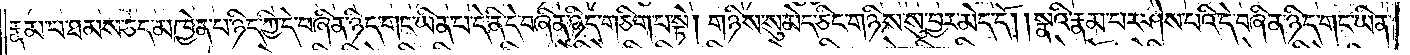རྣམ་པ་ཐམས་ཅད་མཁྱེན་པ་ཉིད་ཀྱི་དེ་བཞིན་ཉིད་གང་ཡིན་པ་དེ་ནི་དེ་བཞིན་ཉིད་གཅིག་པ་སྟེ། གཉིས་སུ་མེད་ཅིང་གཉིས་སུ་བྱར་མེད་དོ། །སྣའི་རྣམ་པར་ཤེས་པའི་དེ་བཞིན་ཉིད་གང་ཡིན་
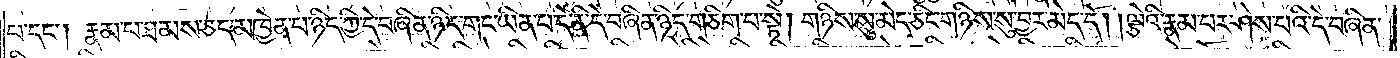པ་དང༌། རྣམ་པ་ཐམས་ཅད་མཁྱེན་པ་ཉིད་ཀྱི་དེ་བཞིན་ཉིད་གང་ཡིན་པ་དེ་ནི་དེ་བཞིན་ཉིད་གཅིག་པ་སྟེ། གཉིས་སུ་མེད་ཅིང་གཉིས་སུ་བྱར་མེད་དོ། །ལྕེའི་རྣམ་པར་ཤེས་པའི་དེ་བཞིན་
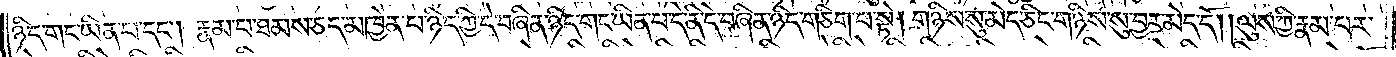ཉིད་གང་ཡིན་པ་དང༌། རྣམ་པ་ཐམས་ཅད་མཁྱེན་པ་ཉིད་ཀྱི་དེ་བཞིན་ཉིད་གང་ཡིན་པ་དེ་ནི་དེ་བཞིན་ཉིད་གཅིག་པ་སྟེ། གཉིས་སུ་མེད་ཅིང་གཉིས་སུ་བྱར་མེད་དོ། །ལུས་ཀྱི་རྣམ་པར་
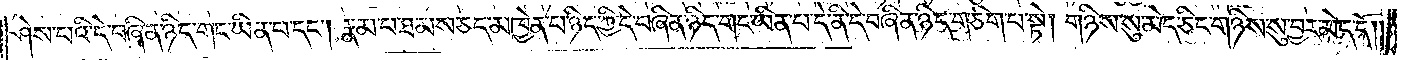ཤེས་པའི་དེ་བཞིན་ཉིད་གང་ཡིན་པ་དང༌། རྣམ་པ་ཐམས་ཅད་མཁྱེན་པ་ཉིད་ཀྱི་དེ་བཞིན་ཉིད་གང་ཡིན་པ་དེ་ནི་དེ་བཞིན་ཉིད་གཅིག་པ་སྟེ། གཉིས་སུ་མེད་ཅིང་གཉིས་སུ་བྱར་མེད་དོ། །
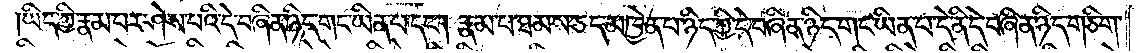ཡིད་ཀྱི་རྣམ་པར་ཤེས་པའི་དེ་བཞིན་ཉིད་གང་ཡིན་པ་དང༌། རྣམ་པ་ཐམས་ཅད་མཁྱེན་པ་ཉིད་ཀྱི་དེ་བཞིན་ཉིད་གང་ཡིན་པ་དེ་ནི་དེ་བཞིན་ཉིད་གཅིག་
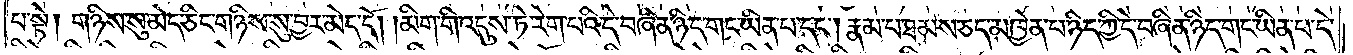པ་སྟེ། གཉིས་སུ་མེད་ཅིང་གཉིས་སུ་བྱར་མེད་དོ། །མིག་གི་འདུས་ཏེ་རེག་པའི་དེ་བཞིན་ཉིད་གང་ཡིན་པ་དང༌། རྣམ་པ་ཐམས་ཅད་མཁྱེན་པ་ཉིད་ཀྱི་དེ་བཞིན་ཉིད་གང་ཡིན་པ་དེ་
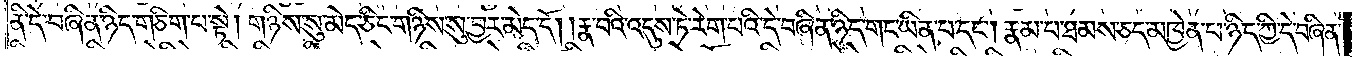ནི་དེ་བཞིན་ཉིད་གཅིག་པ་སྟེ། གཉིས་སུ་མེད་ཅིང་གཉིས་སུ་བྱར་མེད་དོ། །རྣ་བའི་འདུས་ཏེ་རེག་པའི་དེ་བཞིན་ཉིད་གང་ཡིན་པ་དང༌། རྣམ་པ་ཐམས་ཅད་མཁྱེན་པ་ཉིད་ཀྱི་དེ་བཞིན་
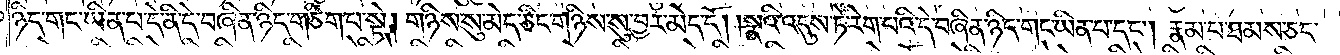ཉིད་གང་ཡིན་པ་དེ་ནི་དེ་བཞིན་ཉིད་གཅིག་པ་སྟེ། གཉིས་སུ་མེད་ཅིང་གཉིས་སུ་བྱར་མེད་དོ། །སྣའི་འདུས་ཏེ་རེག་པའི་དེ་བཞིན་ཉིད་གང་ཡིན་པ་དང༌། རྣམ་པ་ཐམས་ཅད་
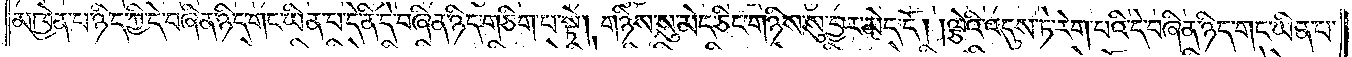མཁྱེན་པ་ཉིད་ཀྱི་དེ་བཞིན་ཉིད་གང་ཡིན་པ་དེ་ནི་དེ་བཞིན་ཉིད་གཅིག་པ་སྟེ། གཉིས་སུ་མེད་ཅིང་གཉིས་སུ་བྱར་མེད་དོ། །ལྕེའི་འདུས་ཏེ་རེག་པའི་དེ་བཞིན་ཉིད་གང་ཡིན་པ་
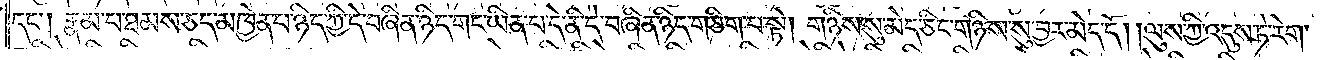དང༌། རྣམ་པ་ཐམས་ཅད་མཁྱེན་པ་ཉིད་ཀྱི་དེ་བཞིན་ཉིད་གང་ཡིན་པ་དེ་ནི་དེ་བཞིན་ཉིད་གཅིག་པ་སྟེ། གཉིས་སུ་མེད་ཅིང་གཉིས་སུ་བྱར་མེད་དོ། །ལུས་ཀྱི་འདུས་ཏེ་རེག་
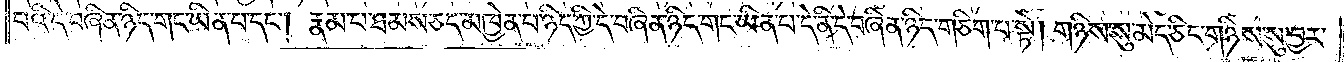པའི་དེ་བཞིན་ཉིད་གང་ཡིན་པ་དང༌། རྣམ་པ་ཐམས་ཅད་མཁྱེན་པ་ཉིད་ཀྱི་དེ་བཞིན་ཉིད་གང་ཡིན་པ་དེ་ནི་དེ་བཞིན་ཉིད་གཅིག་པ་སྟེ། གཉིས་སུ་མེད་ཅིང་གཉིས་སུ་བྱར་
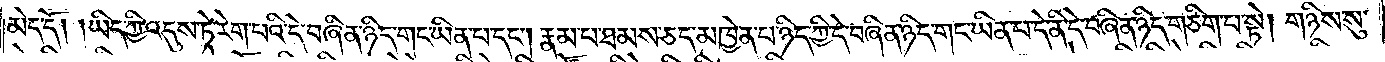མེད་དོ། །ཡིད་ཀྱི་འདུས་ཏེ་རེག་པའི་དེ་བཞིན་ཉིད་གང་ཡིན་པ་དང༌། རྣམ་པ་ཐམས་ཅད་མཁྱེན་པ་ཉིད་ཀྱི་དེ་བཞིན་ཉིད་གང་ཡིན་པ་དེ་ནི་དེ་བཞིན་ཉིད་གཅིག་པ་སྟེ། གཉིས་སུ་
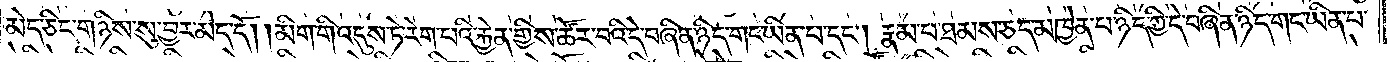མེད་ཅིང་གཉིས་སུ་བྱར་མེད་དོ། །མིག་གི་འདུས་ཏེ་རེག་པའི་རྐྱེན་གྱིས་ཚོར་བའི་དེ་བཞིན་ཉིད་གང་ཡིན་པ་དང༌། རྣམ་པ་ཐམས་ཅད་མཁྱེན་པ་ཉིད་ཀྱི་དེ་བཞིན་ཉིད་གང་ཡིན་པ་
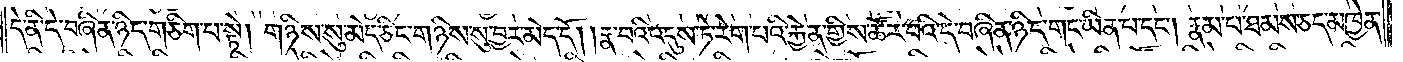དེ་ནི་དེ་བཞིན་ཉིད་གཅིག་པ་སྟེ། གཉིས་སུ་མེད་ཅིང་གཉིས་སུ་བྱར་མེད་དོ། །རྣ་བའི་འདུས་ཏེ་རེག་པའི་རྐྱེན་གྱིས་ཚོར་བའི་དེ་བཞིན་ཉིད་གང་ཡིན་པ་དང༌། རྣམ་པ་ཐམས་ཅད་མཁྱེན་
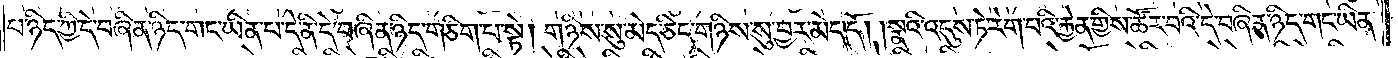པ་ཉིད་ཀྱི་དེ་བཞིན་ཉིད་གང་ཡིན་པ་དེ་ནི་དེ་བཞིན་ཉིད་གཅིག་པ་སྟེ། གཉིས་སུ་མེད་ཅིང་གཉིས་སུ་བྱར་མེད་དོ། །སྣའི་འདུས་ཏེ་རེག་པའི་རྐྱེན་གྱིས་ཚོར་བའི་དེ་བཞིན་ཉིད་གང་ཡིན་
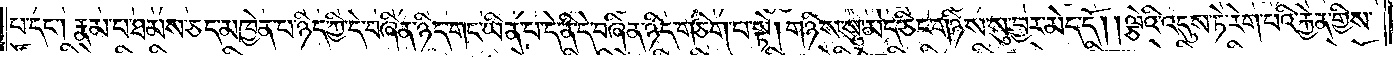པ་དང༌། རྣམ་པ་ཐམས་ཅད་མཁྱེན་པ་ཉིད་ཀྱི་དེ་བཞིན་ཉིད་གང་ཡིན་པ་དེ་ནི་དེ་བཞིན་ཉིད་གཅིག་པ་སྟེ། གཉིས་སུ་མེད་ཅིང་གཉིས་སུ་བྱར་མེད་དོ། །ལྕེའི་འདུས་ཏེ་རེག་པའི་རྐྱེན་གྱིས་
